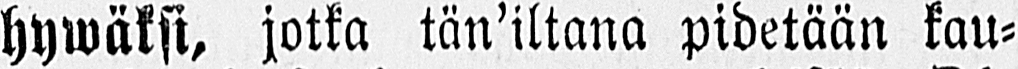hywäksi, jotka tän ’ iltana pidetään kau-
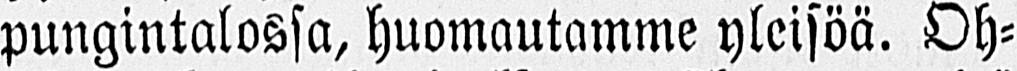pungintalossa, huomautamme yleisöä. Oh-
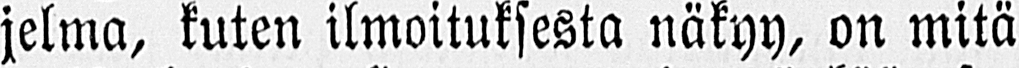jelma, kuten ilmoituksesta näkyy, on mitä
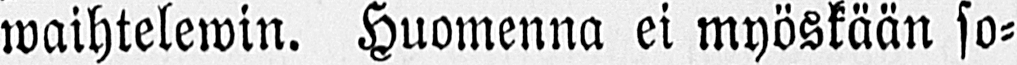waihtelewin. Huomenna ei myöskään so-
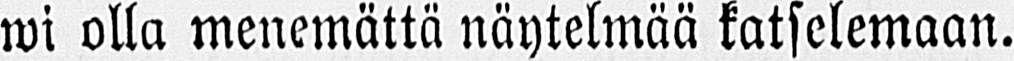wi olla menemättä näytelmää katselemaan.
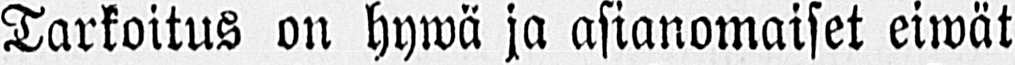Tarkoitus on hywä ja asianomaiset eiwät
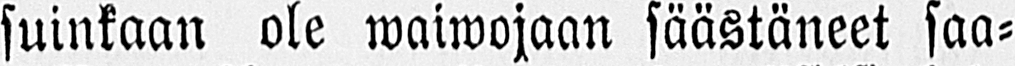suinkaan ole waiwojaan säästäneet saa-
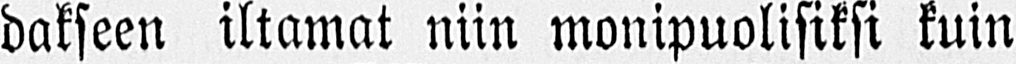dakseen iltamat niin monipuolisiksi kuin
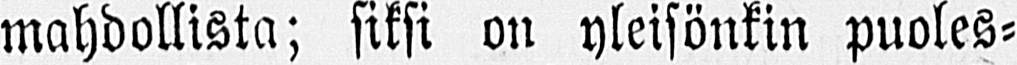mahdollista; siksi on yleisönkin puoles-
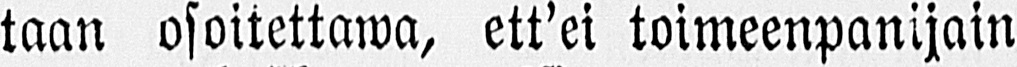taan osoitettawa, ett’ei toimeenpanijain
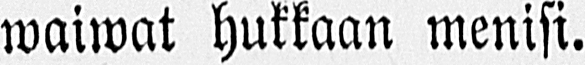waiwat hukkaan menisi.
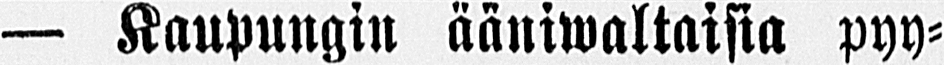— Kaupungin ääniwaltaisia pyy-
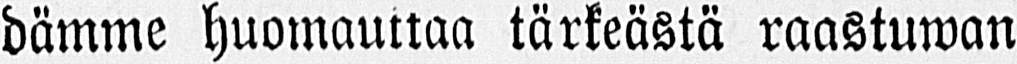dämme huomauttaa tärkeästä raastuwan
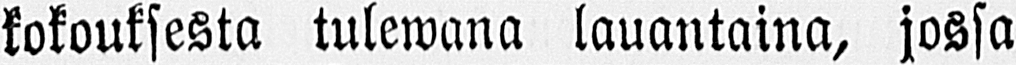kokouksesta tulewana lauantaina, jossa
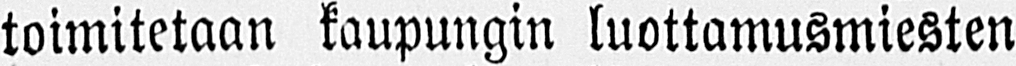toimitetaan kaupungin luottamusmiesten
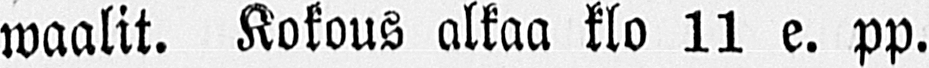waalit. Kokous alkaa klo 11 e. pp.
